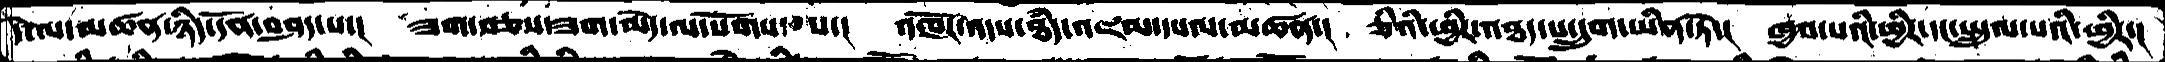དེ་ལ་མཚན་ཉིད་དོན་བཤད་པ་།  ཟག་བཅས་ཟག་མེད་ལ་སོགས་པས་།  འཁོར་འདས་ཐདཾ་འཇམ་དཔལ་མཚན་།  ཅིའི་ཕྱིར་འཐད་པ་དྲུག་ཡིན་ཏེ་།  ཁྱབ་པའི་ཕྱིར་དང་སྤྲུལ་པའི་ཕྱིར་།
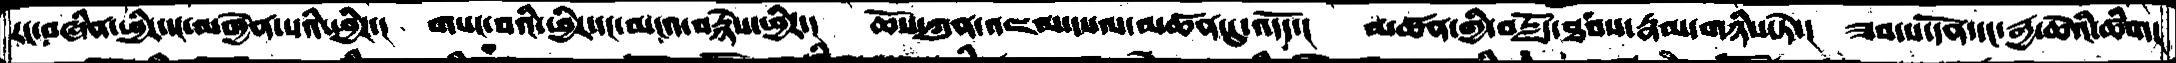རང་བཞིན་ཕྱིར་དང་མཁྱེན་པའི་དབྱིང་།  གསང་བའི་ཕྱིར་དང་མངའ་བརྙེས་ཕྱིར་།  ཆོས་ཀུན་འཇམ་དཔལ་མཚན་དུ་འདོད་།  མཚན་གྱི་བརྗོད་ཐབས་རྣམ་གཉིས་ཏེ་།  ཟབ་པ་དོན་དང་རྒྱ་ཆེའི་ཚིག།
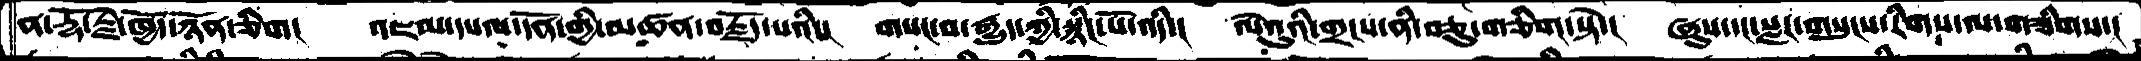ན་རྡོ་རྗེ་ཁྱོད་ཉོན་ཅིག།   འཇམ་དཔལ་དོན་གྱི་མཚན་བརྗོད་པའི་།  གསང་བ་རྒྱུད་ཀྱི་སྙིང་པོ་འདི་།  ལེའུའི་གྲངས་ནི་བཅུ་གཅིག་སྟེ་།  ཞུས་དང་སླར་གསུངས་རིགས་ལ་གཟིགས་།
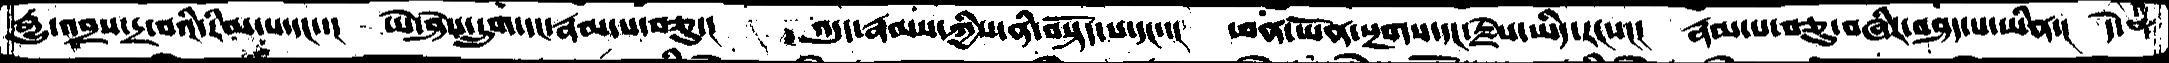རྒྱུ་འབྲས་དྲ་བའི་རིམ་པ་དང་་།  ཡེ་ཤེས་དྲུག་དང་རྣམ་པ་བཅུ་།  འདུད་རྣམས་ཀྱིས་ནི་བསྟོད་པ་དང་་།  ཕན་ཡོན་སྔགས་དང་རྗེས་ཡིད་རངས།།།  རྣམ་པ་བཅུ་བཞིར་བཤད་པ་ཡིན་།  དེ་ནི
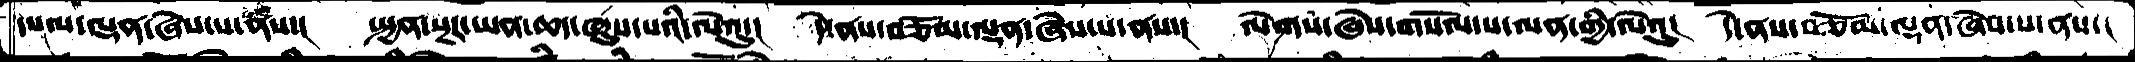དཔལ་ལྡན་ཞེས་པ་རྣཾས་།  སྤྱན་སྔར་ཡན་ཆད་ཞུས་པའི་ལེའུ་།   དེ་ནས་བཅོམ་ལྡན་ཞེས་པ་ནས་།  ལེགས་ཞེས་གསོལ་པ་ལན་གྱི་ལེའུ།  དེ་ནས་བཅོམ་ལྡན་ཞེས་པ་ནས་།
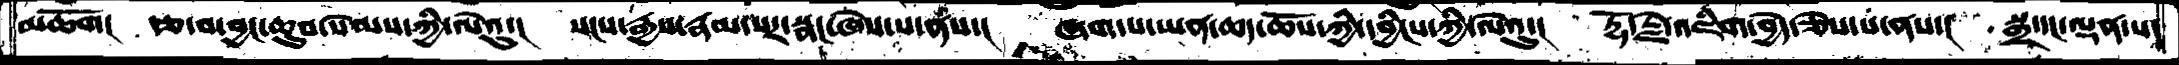མཆོག།  རྩ་བ་བྱང་ཆུབ་སེམས་ཀྱི་ལེའུ་།  སངས་རྒྱས་རྣམ་པར་སྣང་ཞེས་པ་ནས་།  ཞག་པ་ཡན་ཆད་ཆོས་ཀྱི་དབྱིངས་ཀྱི་ལེའུ་།  རྡོ་རྗེ་འཇིག་བྱེད་ཅེས་པ་ནས་།  སྒྲ་དང་ལྡན་པ་
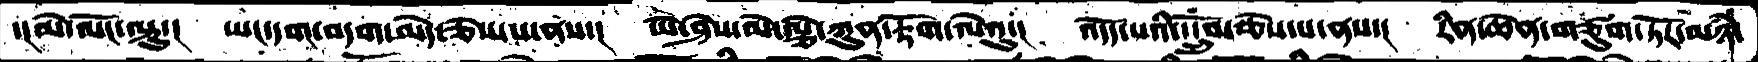་།མེ་ལོང་ལྟུ་།  ཡང་དག་བདག་མེད་ཅེས་པ་ནས་།  ཡེ་ཤེས་མེ་ལྕེ་ཀུན་རྟོག་ལེའུ་།  འདོད་པའི་དངྲོུབ་ཅེས་པ་ནས་།  རིན་ཆེན་གཙུག་ཏོར་མཉཾ་
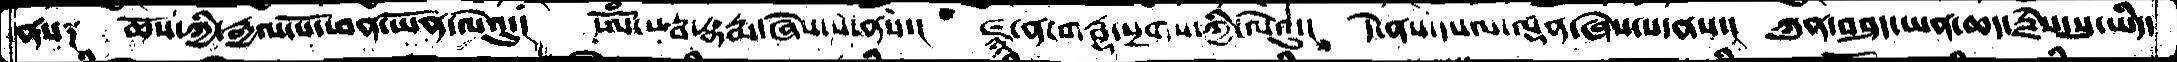ནས༑   ཆོས་ཀྱི་རྒྱལ་པོ་ཕན་ཡོན་ལེའུ་།  ཨོཾ་སརྦ་དྷརྨ་ཞེས་པ་ནས་།  ཛྙཱ་ན་གརྦྷ་སྔགས་ཀྱི་ལེའུ་།  དེ་ནས་དཔལ་ལྡན་ཞེས་པ་ནས་།  ཀུན་བཤད་ཡན་ཆད་རྗེས་སུ་ཡིད་
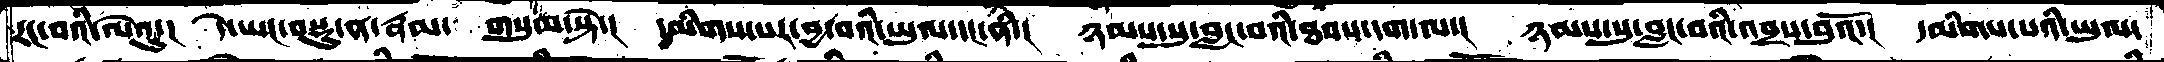རང་བའི་ལེའུ་།  དེ་ཡང་བསྡུ་ན་རྣམ་  གསུམ་སྟེ་།  དམིགས་པར་བྱ་བའི་ཡུལ་དང་ནི་།  ཉམས་སུ་བླང་བའི་ཐབས་དག་ལ་།  ཉམས་སུ་བླང་བའི་འབྲས་བུའོ་།  དམིགས་པའི་ཡུལ་
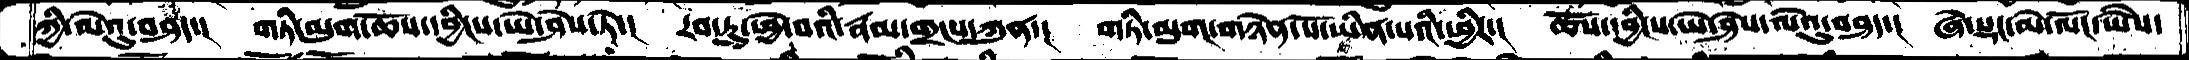ཀྱི་ལེའུ་བཤད་།  གཏི་མུག་ཆོས་དབྱིངས་ཡེ་ཤེས་ཏེ་།  རབ་ཏུ་ཕྱེ་བའི་རྣམ་གྲངས་ཀུན་།  གཏི་མུག་གཉེན་པོ་ཡིན་པའི་ཕྱིར་།  ཆོས་དབྱིངས་ཡེ་ཤེས་ལེའུ་བཤད་།  ཞེ་སྡང་མེ་ལོང་ཡཻས་
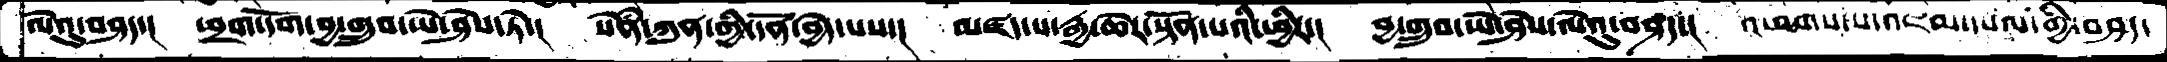ལེའུ་བཤད་།  ཕྲག་དོག་བྱ་གྲུབ་ཡེ་ཤེས་ཏེ་།  སེཾན་ཀུན་གྱི་དོན་བྱེད་པས་།  མཛད་པ་རྒྱ་ཆེར་སྟོན་པའི་ཕྱིར་།  བྱ་གྲུབ་ཡེ་ཤེས་ལེའུ་བཤད་།   འཕགས་པ་འཇམ་དཔལ་གྱི་བཤད་
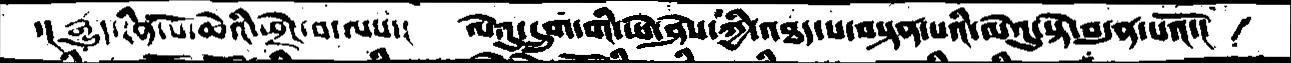་།རྒྱུད་རིན་པོ་ཆེའི་ཕྲེང་བ་ལས་།  ལེའུ་དྲུག་གི་ཡེ་ཤེས་ཀྱི་འཐད་པ་བསྟན་པའི་ལེའུ་སྟེ་བདུན་པའོ་།
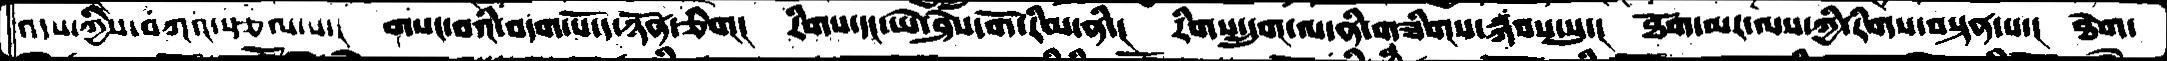འདས་ཀྱིས་བཀའ་སྩལ་པ་།  གསང་བའི་བདག་པོ་ད་ཉོན་ཅིག།  རིགས་དང་ཡེ་ཤེས་གོ་རིམ་ནི་།  རིགས་དྲུག་ལ་ནི་གཟིགས་སྐབས་སུ་།  ཐོག་མར་ལས་ཀྱི་རིགས་བསྟན་པ་།  ཐེག་
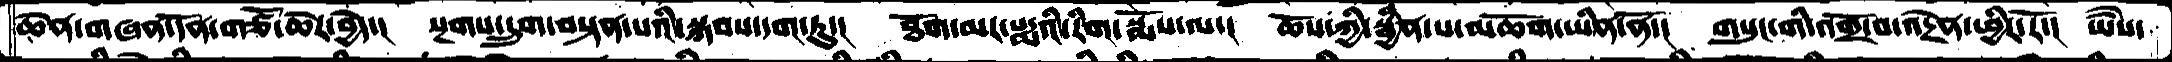ཆེན་གཞན་དོན་གཙོ་ཆེར་བྱེད་། སྔགས་དྲུག་བསྟན་པའི་སྐབས་དག་ཏུ་།  ཐོག་མར་པདྨའི་རིག་སྨོས་ལ་།  ཆོས་ཀྱི་སྦྱིན་པ་མཆོག་ཡིན་ནོ་།  གསུང་གི་འགྲོ་བ་འདྲེན་ཕྱིར་རོ་།  ཡཻས་
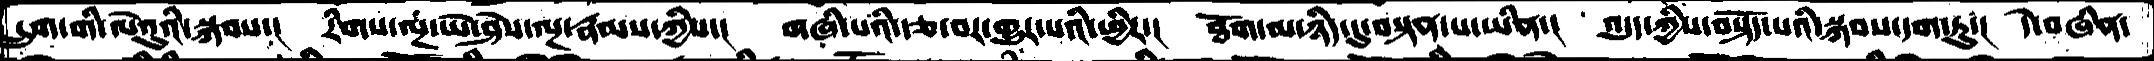དྲུག་གི་ལེའུའི་སྐབས་།   རིགས་ལྔ་ཡེ་ཤེས་ལྔ་རྣམས་ཀྱིས་།  གཞི་པའི་རྩ་བར་གྱུར་པའི་ཕྱིར་།  ཐོག་མ་ཉིད་དུ་བསྟན་པ་ཡིན་།  འདུད་ཀྱིས་བསྟོད་པའི་སྐབས་དག་ཏུ་།  དེ་བཞིན་
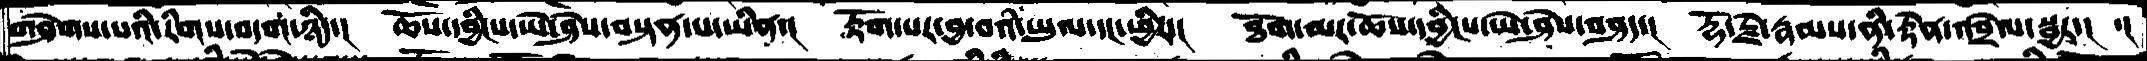གཤེགས་པའི་རིགས་བདག་ཉིད་།  ཆོས་དབྱིངས་ཡེ་ཤེས་བསྟན་པ་ཡིན་།  རྟོག་པར་བྱ་བའི་ཡུལ་དང་ཕྱིར་།  ཐོག་མར་ཆོས་དབྱིངས་ཡེ་ཤེས་བཤད་།  རྡོ་རྗེ་རྣམས་ནི་རྟེན་འབྲེལ་སྦྱར་།  ་།
